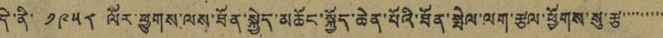དེ་ནི་ ༡༩༥༨ ལོར་ཕྱུགས་ལས་ཐོན་སྐྱེད་མཆོང་སྐྱོད་ཆེན་པོའི་ཐོན་སྤེལ་ལག་རྩལ་ཕྱོགས་སུ་རྩ་་་་་་་་་
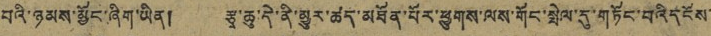བའི་ཉམས་མྱོང་ཞིག་ཡིན། རྩྭ་ཆུ་དེ་ནི་མྱུར་ཚད་མཐོན་པོར་ཕྱུགས་ལས་གོང་སྤེལ་དུ་གཏོང་བའི་དངོས་
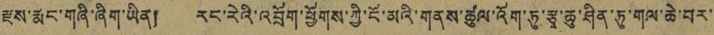རྫས་རྨང་གཞི་ཞིག་ཡིན། རང་རེའི་འབྲོག་ཕྱོགས་ཀྱི་ངོ་མའི་གནས་ཚུལ་འོག་ཏུ་རྩྭ་ཆུ་ཤིན་ཏུ་གལ་ཆེ་བར་
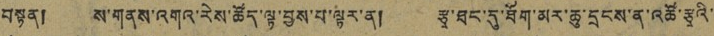བསྟན། ས་གནས་འགའ་རེས་ཚོད་ལྟ་བྱས་པ་ལྟར་ན། རྩྭ་ཐང་དུ་ཐོག་མར་ཆུ་དྲངས་ན་འཚོ་རྩྭའི་
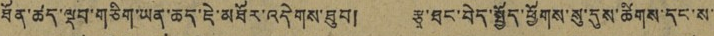ཐོན་ཚད་ལྡབ་གཅིག་ཡན་ཆད་ཇེ་མཐོར་འདེགས་ཐུབ། རྩྭ་ཐང་བེད་སྤྱོད་ཕྱོགས་སུ་དུས་ཚིགས་དང་ས་
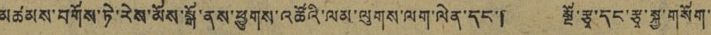མཚམས་བགོས་ཏེ་རེས་མོས་སྒོ་ནས་ཕྱུགས་འཚོའི་ལམ་ལུགས་ལག་ལེན་དང་། སྔོ་རྩྭ་དང་རྩྭ་སྐྱ་གསོག་
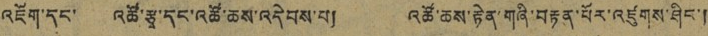འཇོག་དང་ འཚོ་རྩྭ་དང་འཚོ་ཆས་འདེབས་པ། འཚོ་ཆས་རྟེན་གཞི་བརྟེན་པོར་འཛུགས་ཤིང་།
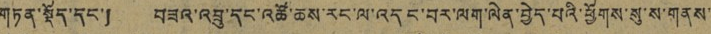གཏན་སྡོད་དང་། བཟའ་འབྲུ་དང་འཚོ་ཆས་རང་ལ་འདང་བར་ལག་ལེན་བྱེད་པའི་ཕྱོགས་སུ་ས་གནས་
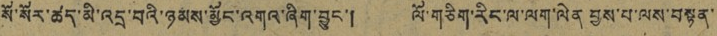སོ་སོར་ཚད་མི་འདྲ་བའི་ཉམས་མྱོང་འགའ་ཞིག་བྱུང་། ལོ་གཅིག་རིང་ལ་ལག་ལེན བྱས་པ་ལས་བསྟན་
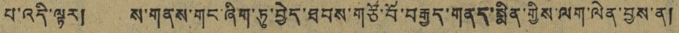པ་འདི་ལྟར། ས་གནས་གང་ཞིག་ཏུ་བྱེད་ཐབས་གཙོ་བོ་བརྒྱད་གནད་སྨིན་གྱིས་ལག་ལེན་བྱས་ན།
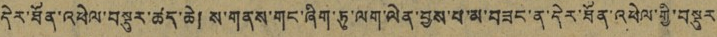དེར་ཐོན་འཕེལ་བསྡུར་ཚད་ཆེ། ས་གནས་གང་ཞིག་ཏུ་ལག་ལེན་བྱས་པ་མ་བཟང་ན་དེར་ཐོན་འཕེལ་གྱི་བསྡུར
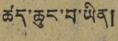ཚད་ཆུང་བ་ཡིན།
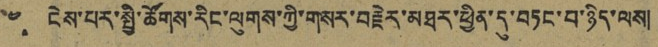༤ ངེས་པར་སྤྱི་ཚོགས་རིང་ལུགས་ཀྱི་གསར་བརྗེར་མཐར་ཕྱིན་དུ་བཏང་བ་ཉིད་ལས།
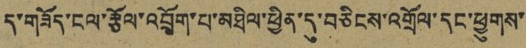ད་གཟོད་ངལ་རྩོལ་འབྲོག་པ་མཐིལ་ཕྱིན་དུ་བཅིངས་འགྲོལ་དང་ཕྱུགས་
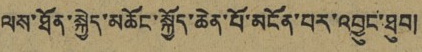ལས་ཐོན་སྐྱེད་མཆོང་སྐྱོད་ཆེན་པོ་མངོན་པར་འབྱུང་ཐུབ།
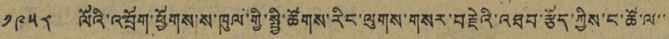༡༩༥༨ ལོའི་འབྲོག་ཕྱོགས་ས་ཁུལ་གྱི་སྤྱི་ཚོགས་རིང་ལུགས་གསར་བརྗེའི་འཐབ་རྩོད་ཀྱིས་ང་ཚོ་ལ་་
